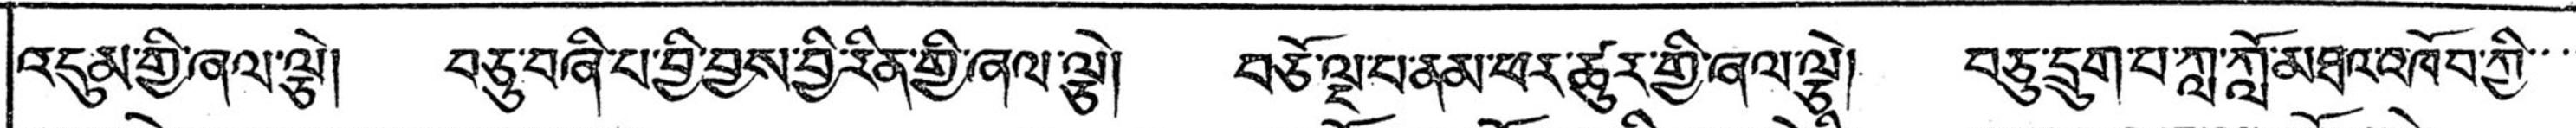འདུམ་གྱི་ཞལ་ལྕེ། བཅུ་བཞི་པ་བྱི་བྱས་བྱི་རིན་གྱི་ཞལ་ལྕེ། བཅོ་ལྔ་པ་ནམ་ཕར་ཚུར་གྱི་ཞལ་ལྕེ། བཅུ་དྲུག་པ་ཀླ་སློ་མཐའ་འཁོབ་ཀྱི་་་་
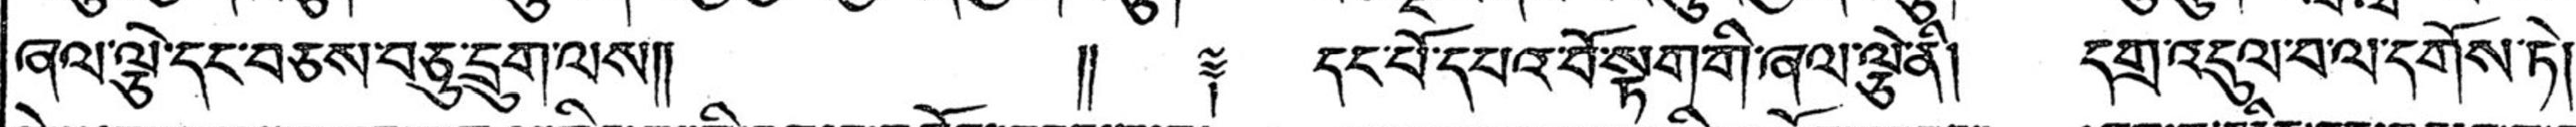ཞལ་ལྕེ་དང་བཅས་བཅུ་དྲུག་ལས།།  །། ༈ དང་པོ་དཔའ་བོ་སྟག་གི་ཞལ་ལྕེ་ནི། དགྲ་འདུལ་བ་ལ་དགོས་ཏེ།
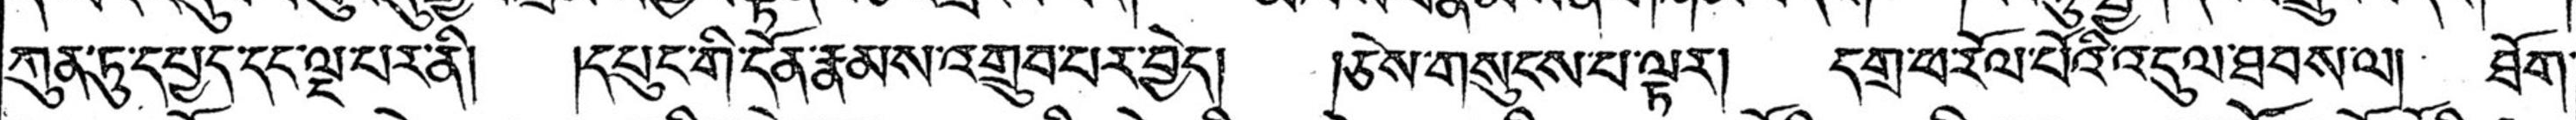ཀུན་ཏུ་དཔྱད་དང་ལྔ་པར་ནི། །དཔུང་གི་དོན་རྣམས་འགྲུབ་པར་བྱེད། །ཅེས་གསུངས་པ་ལྟར། དགྲ་ཕ་རོལ་པོའི་འདུལ་ཐབས་ལ། ཐོག་
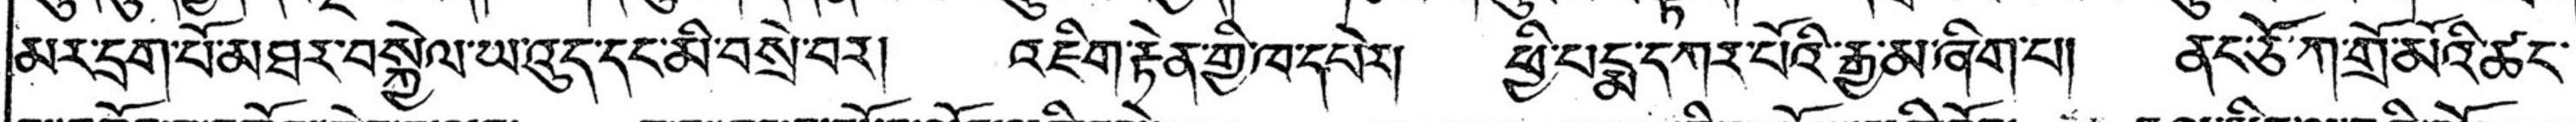མར་དྲག་པོ་མཐར་བསྐྱེལ་ཡ་འུད་དང་མི་བསྲེ་བར། འཇིག་རྟེན་གྱི་ཁ་དཔེར། ཕྱི་པདྨ་དཀར་པོའི་རྒྱ་མ་ཞིག་པ། ནང་ཅོ་ཀ་གྲོ་མོའི་ཚང་་
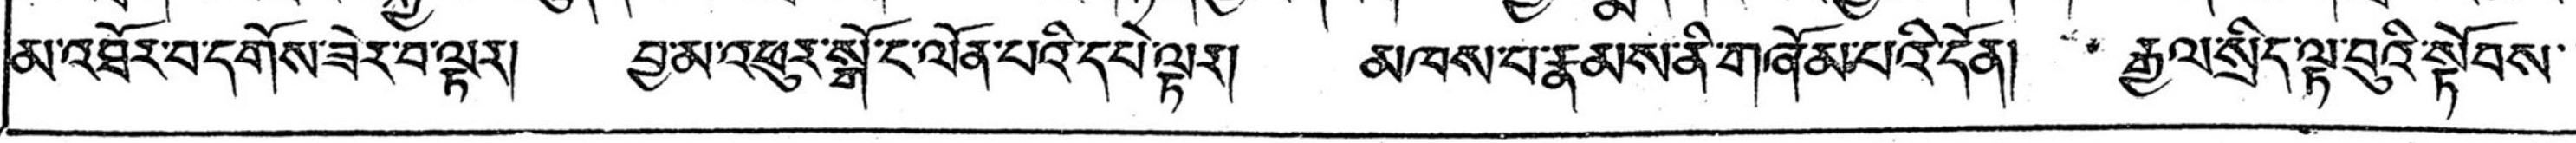མ་འཐོར་བ་དགོས་ཟེར་བ་ལྟར། བྱ་མ་འཕུར་སྒོ་ང་ལོན་པའི་དཔེ་ལྟར། མཁས་པ་རྣམས་ནི་གཞོམ་པའི་དོན། རྒྱལ་སྲིད་ལྟ་བུའི་སྟོབས་་
